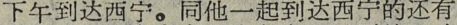下午到达西宁。同他一起到达西宁的还有
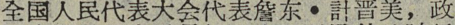全国人民代表大会代表詹东・計晋美，政
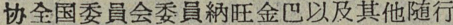协全国委員会委員納旺金巴以及其他随行
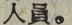人員。
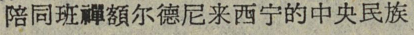陪同班禪額尔德尼来西宁的中央民族
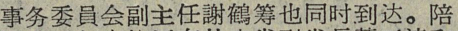事务委員会副主任謝鹤等也同时到达。陪
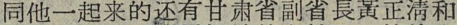同他一起来的还有甘肃省副省長黄正清和
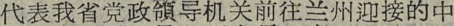代表我省党政領导机关前往兰州迎接的中
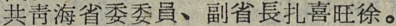共靑海省委委員、副省長扎喜旺徐。
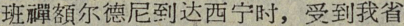班禪額尔德尼到达西宁时，受到我省
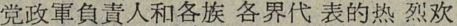党政軍負責人和各族各界代表的热烈欢
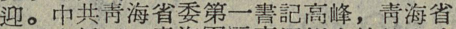迎。中共靑海省委第一書記高峰，靑海省
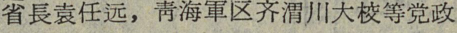省長袁任远，靑海軍区齐渭川大校等党政
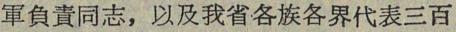軍負責同志，以及我省各族各界代表三百
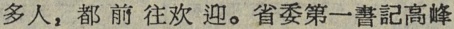多人，都前往欢迎。省委第一書記高峰
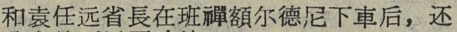和袁任远省長在班禪額尔德尼下車后，还
